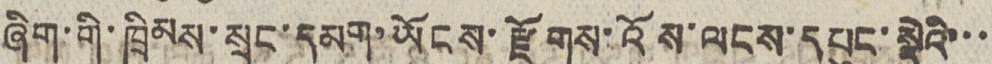ཞིག་གི་ཁྲིམས་སྲུང་དམག་ཡོངས་རྫོགས་འོས་ལངས་དཔུང་སྡེའི་་་
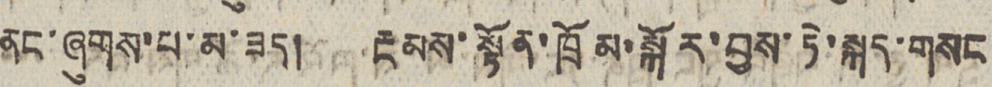ནང་ཞུགས་པ་མ་ཟད། རྔམས་སྟོན་ཁྲོམ་སྐོར་བྱས་ཏེ་སྐད་གསང
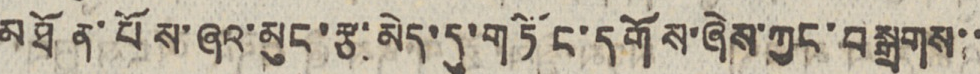མཐོན་པོས་ཞའ་མུང་རྩ་མེད་དུ་གཏོང་དགོས་ཞེས་ཀྱང་བསྒྲགས་་
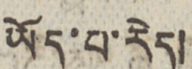ཡོད་པ་རེད།
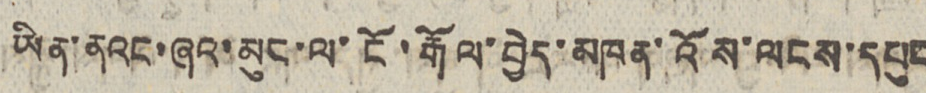ཡིན་ནའང་ཞའ་མུང་ལ་ངོ་རྒོལ་བྱེད་མཁན་འོས་ལངས་དཔུང
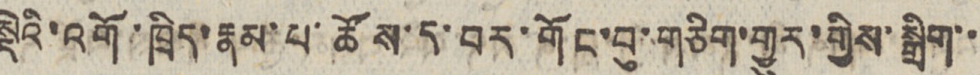སྡེའི་འགོ་ཁྲིད་རྣམ་པ་ཚོས་ད་བར་གོང་བུ་གཅིག་གྱུར་གྱིས་སྒྲིག་་
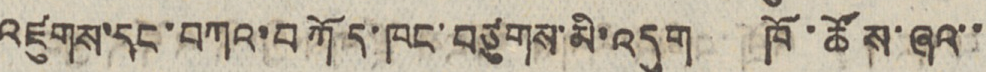འཛུགས་དང་བཀའ་བཀོད་ཁང་བཙུགས་མི་འདུག ཁོ་ཚོས་ཞའ་་
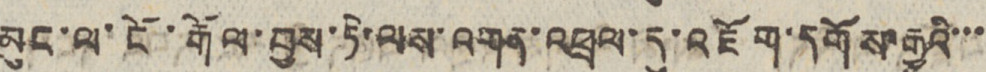མུང་ལ་ངོ་རྒོལ་བྱས་ཏེ་ལས་འགན་འཕྲལ་དུ་འཇོག་དགོས་རྒྱུའི་་་
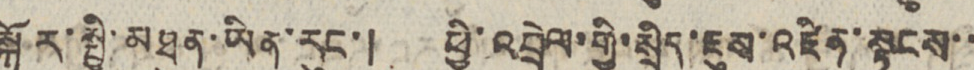སྐོར་སྤྱི་མཐུན་ཡིན་རུང་། ཕྱི་འབྲེལ་གྱི་སྲིད་ཇུས་འཛིན་སྟངས་་
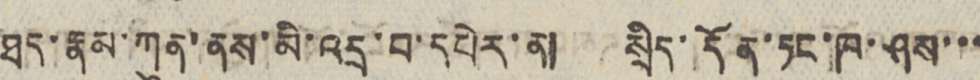ཐད་རྣམ་ཀུན་ནས་མི་འདྲ་བ་དཔེར་ན། སྲིད་དོན་ཏང་ཁ་ཤས་་་
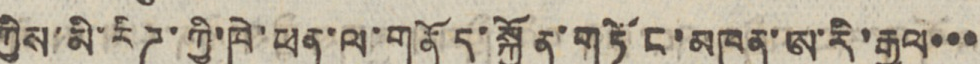ཀྱིས་མི་རིཊ་ཀྱི་ཁེ་ཕན་ལ་གནོད་སྐྱོན་གཏོང་མཁན་ཨ་རི་རྒྱལ་་་
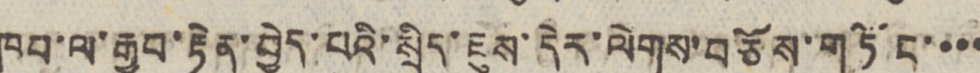ཁབ་ལ་རྒྱབ་རྟེན་བྱེད་པའི་སྲིད་ཇུས་དེར་ལེགས་བཅོས་གཏོང་་་་
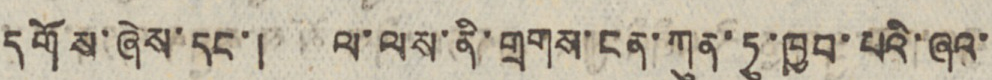དགོས་ཞེས་དང་། ལ་ལས་ནི་གྲགས་ངན་ཀུན་ཏུ་ཁྱབ་པའི་ཞའ་
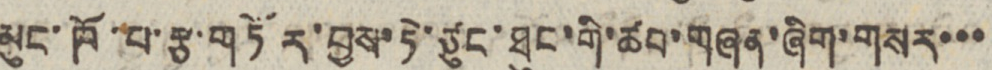མུང་ཁོ་བ་རྩ་གཏོར་བྱས་ཏེ་ཙུང་ཐུང་གི་ཚབ་གཞན་ཞིག་གསར་་་
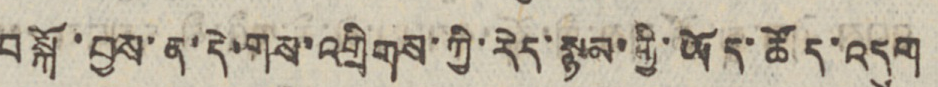བསྐོ་བྱས་ན་དེ་གས་འགྲིགས་ཀྱི་རེད་སྙམ་གྱི་ཡོད་ཚོད་འདུག
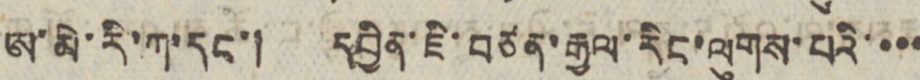ཨ་མེ་རི་ཀ་དང་། དབྱིན་ཇི་བཙན་རྒྱལ་རིང་ལུགས་པའི་་་་
